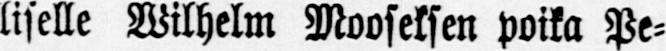liselle Wilhelm Mooseksen poika Pe-
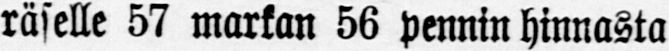räselle 57 markan 56 pennin hinnasta
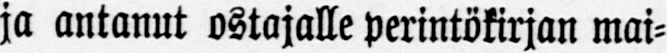ja antanut ostajalle perintökirjan mai-
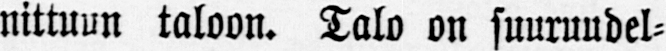nittuun taloon. Talo on suuruudel-
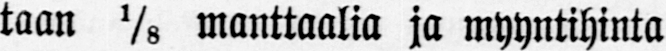taan ⅛ manttaalia ja myyntihinta
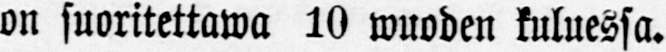on suoritettawa 10 wuoden kuluessa.
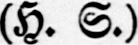(H. S.)
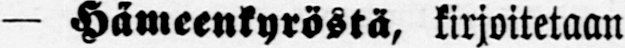— Hämeenkyröstä, kirjoitetaan
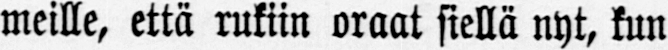meille, että rukiin oraat siellä nyt, kun
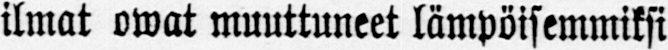ilmat owat muuttuneet lämpöisemmiksi
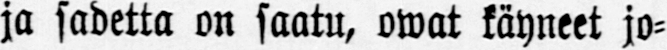ja sadetta on saatu, owat käyneet jo-
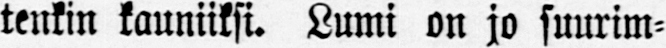tenkin kauniiksi. Lumi on jo suurim-
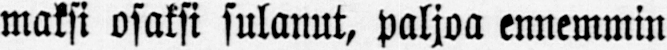maksi osaksi sulanut, paljoa ennemmin
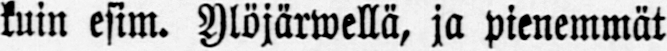kuin esim. Ylöjärwellä, ja pienemmät
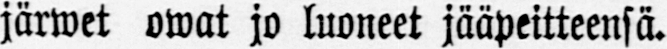järwet owat jo luoneet jääpeitteensä.
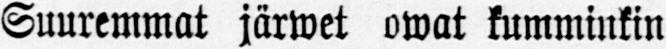Suuremmat järwet owat kumminkin
